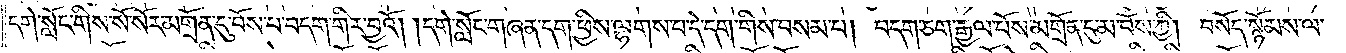དགེ་སློང་གིས་སོ་སོར་མགྲོན་དུ་བོས་པ་བདག་གིར་བྱའོ། །དགེ་སློང་གཞན་དག་ཕྱིས་ལྷགས་པ་དེ་དག་གིས་བསམ་པ། བདག་ཅག་རྒྱལ་པོས་མགྲོན་དུ་མ་བོས་ཀྱི། བསོད་སྙོམས་ལ་
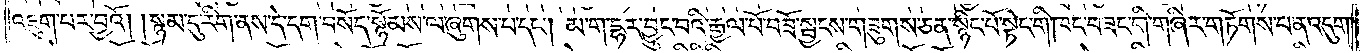འཇུག་པར་བྱའོ། །སྙམ་དུ་རིག་ནས་དེ་དག་བསོད་སྙོམས་ལ་ཞུགས་པ་དང༌། མ་ག་དྷར་བྱུང་བའི་རྒྱལ་པོ་བཟོ་སྦྱངས་གཟུགས་ཅན་སྙིང་པོ་སྟེང་གི་ཁང་བཟང་གི་གཞིར་གཏོགས་པ་ན་འདུག་
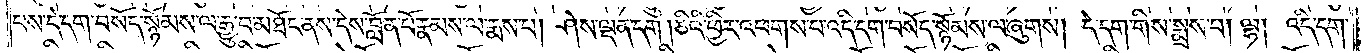པས་དེ་དག་བསོད་སྙོམས་ལ་རྒྱུ་བ་མཐོང་ནས་དེས་བློན་པོ་རྣམས་ལ་རྨས་པ། ཤེས་ལྡན་དག །ཅིའི་ཕྱིར་འཕགས་པ་འདི་དག་བསོད་སྙོམས་ལ་ཞུགས། དེ་དག་གིས་སྨྲས་པ། ལྷ། འདི་དག་
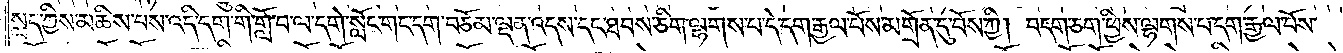སླད་ཀྱིས་མཆིས་པས་འདི་དག་གི་གློ་བ་ལ་དགེ་སློང་གང་དག་བཅོམ་ལྡན་འདས་དང་ཐབས་ཅིག་ལྷགས་པ་དེ་དག་རྒྱལ་པོས་མགྲོན་དུ་བོས་ཀྱི། བདག་ཅག་ཕྱིས་ལྷགས་པ་དག་རྒྱལ་པོས་
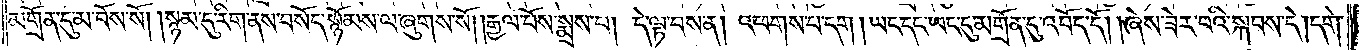མགྲོན་དུ་མ་བོས་སོ། །སྙམ་དུ་རིག་ནས་བསོད་སྙོམས་ལ་ཞུགས་སོ། །རྒྱལ་པོས་སྨྲས་པ། དེ་ལྟ་བས་ན། འཕགས་པ་དག །ཡང་དང་ཡང་དུ་མགྲོན་དུ་འབོད་དོ། །ཞེས་ཟེར་བའི་སྐབས་དེ། དགེ་
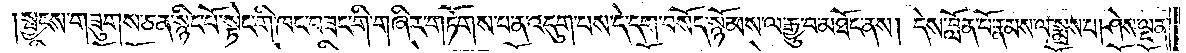སྦྱངས་གཟུགས་ཅན་སྙིང་པོ་སྟེང་གི་ཁང་བཟང་གི་གཞིར་གཏོགས་པ་ན་འདུག་པས་དེ་དག་བསོད་སྙོམས་ལ་རྒྱུ་བ་མཐོང་ནས། དེས་བློན་པོ་རྣམས་ལ་སྨྲས་པ། ཤེས་ལྡན་
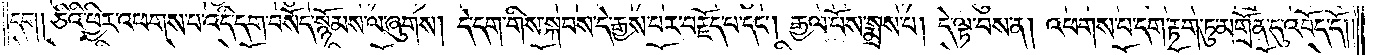དང༎ ཅིའི་ཕྱིར་འཕགས་པ་འདི་དག་བསོད་སྙོམས་ལ་ཞུགས། དེ་དག་གིས་སྐབས་དེ་རྒྱས་པར་བརྗོད་པ་དང༌། རྒྱལ་པོས་སྨྲས་པ། དེ་ལྟ་བས་ན། འཕགས་པ་དག་རྟག་ཏུ་མགྲོན་དུ་འབོད་དོ། །
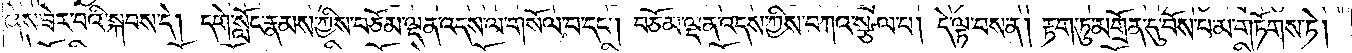ཞེས་ཟེར་བའི་སྐབས་དེ། དགེ་སློང་རྣམས་ཀྱིས་བཅོམ་ལྡན་འདས་ལ་གསོལ་བ་དང༌། བཅོམ་ལྡན་འདས་ཀྱིས་བཀའ་སྩལ་པ། དེ་ལྟ་བས་ན། རྟག་ཏུ་མགྲོན་དུ་བོས་པ་མ་གཏོགས་ཏེ།
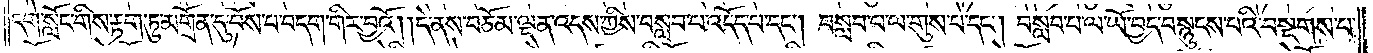དགེ་སློང་གིས་རྟག་ཏུ་མགྲོན་དུ་བོས་པ་བདག་གིར་བྱའོ། །དེ་ནས་བཅོམ་ལྡན་འདས་ཀྱིས་བསླབ་པ་འདོད་པ་དང༌། བསླབ་པ་ལ་གུས་པ་དང༌། བསླབ་པ་ལ་ཡོ་བྱད་བསྙུངས་པའི་བསྔགས་པ་
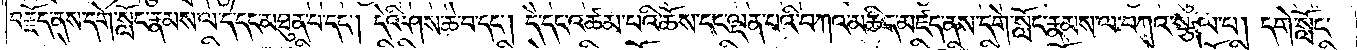བརྗོད་ནས་དགེ་སློང་རྣམས་ལ་དེ་དང་མཐུན་པ་དང༌། དེའི་ཤས་ཆེ་བ་དང༌། དེ་དང་འཚམ་པའི་ཆོས་དང་ལྡན་པའི་བཀའ་མཆིད་མཛད་ནས་དགེ་སློང་རྣམས་ལ་བཀའ་སྩལ་པ། དགེ་སློང་
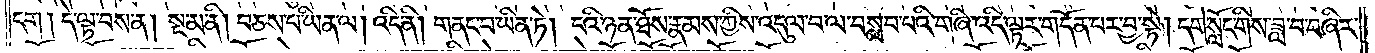དག །དེ་ལྟ་བས་ན། སྔ་མ་ནི། བཅས་པ་ཡིན་ལ། འདི་ནི། གནང་བ་ཡིན་ཏེ། ངའི་ཉན་ཐོས་རྣམས་ཀྱིས་འདུལ་བ་ལ་བསླབ་པའི་གཞི་འདི་ལྟར་གདོན་པར་བྱ་སྟེ། དགེ་སློང་གིས་ཟླ་བ་བཞིར་
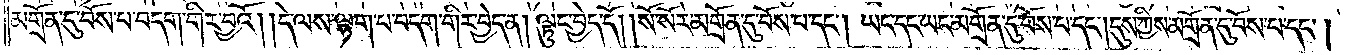མགྲོན་དུ་བོས་པ་བདག་གིར་བྱའོ། །དེ་ལས་ལྷག་པ་བདག་གིར་བྱེད་ན། ལྟུང་བྱེད་དོ། །སོ་སོར་མགྲོན་དུ་བོས་པ་དང༌། ཡང་དང་ཡང་མགྲོན་དུ་བོས་པ་དང༌། དུས་ཀྱིས་མགྲོན་དུ་བོས་པ་དང༌།
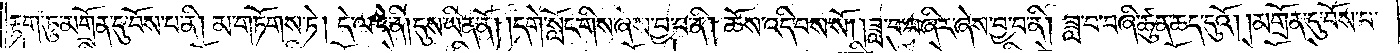རྟག་ཏུ་མགྲོན་དུ་བོས་པ་ནི། མ་གཏོགས་ཏེ། དེ་ལ་དེ་ནི། དུས་ཡིན་ནོ། །དགེ་སློང་གིས་ཞེས་བྱ་བ་ནི། ཆོས་འདི་བས་སོ། །ཟླ་བ་བཞིར་ཞེས་བྱ་བ་ནི། ཟླ་བ་བཞི་ཚུན་ཆད་དུའོ། །མགྲོན་དུ་བོས་པ་
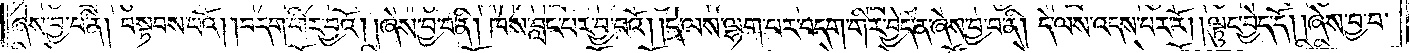ཞེས་བྱ་བ་ནི། བསྟབས་པའོ། །བདག་གིར་བྱའོ། །ཞེས་བྱ་བ་ནི། ཁས་བླང་པར་བྱ་བའོ། །དེ་ལས་ལྷག་པར་བདག་གིར་བྱེད་ན་ཞེས་བྱ་བ་ནི། དེ་ལས་འདས་པར་རོ། །ལྟུང་བྱེད་དོ། །ཞེས་བྱ་བ་
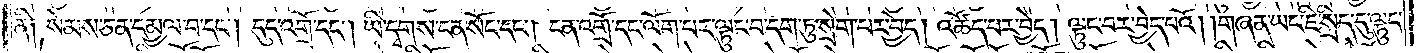ནི༑ སེམས་ཅན་དམྱལ་བ་དང༌། དུད་འགྲོ་དང༌། ཡི་དྭགས་ངན་སོང་དང༌། ངན་འགྲོ་དང་ལོག་པར་ལྟུང་བ་དག་ཏུ་སྲེག་པར་བྱེད། འཚོད་པར་བྱེད། ལྟུང་བར་བྱེད་པའོ། །གཞན་ཡང་ཇི་སྲིད་དུ་ལྟུང་
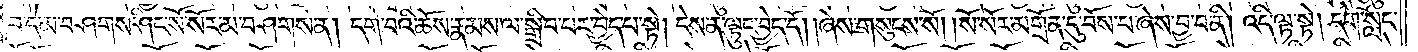བ་དེ་མ་བཤགས་ཤིང་སོ་སོར་མ་བཤགས་ན། དགེ་བའི་ཆོས་རྣམས་ལ་སྒྲིབ་པར་བྱེད་པ་སྟེ། དེས་ན་ལྟུང་བྱེད་དོ། །ཞེས་གསུངས་སོ། །སོ་སོར་མགྲོན་དུ་བོས་པ་ཞེས་བྱ་བ་ནི། འདི་ལྟ་སྟེ། དགེ་སློང་
